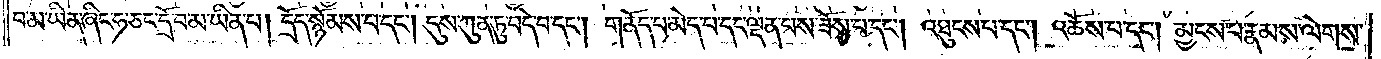པ་མ་ཡིན་ཞིང་ཧ་ཅང་དྲོ་བ་མ་ཡིན་པ། དྲོད་སྙོམས་པ་དང༌། དུས་ཀུན་ཏུ་བདེ་བ་དང༌། གནོད་པ་མེད་པ་དང་ལྡན་པས་ཟོས་པ་དང༌། འཐུངས་པ་དང༌། འཆོས་པ་དང༌། མྱངས་པ་རྣམས་ལེགས་
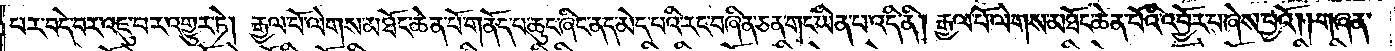པར་བདེ་བར་འཇུ་བར་འགྱུར་ཏེ། རྒྱལ་པོ་ལེགས་མཐོང་ཆེན་པོ་གནོད་པ་ཆུང་ཞིང་ནད་མེད་པའི་རང་བཞིན་ཅན་གང་ཡིན་པ་འདི་ནི། རྒྱལ་པོ་ལེགས་མཐོང་ཆེན་པོའི་འབྱོར་པ་ཞེས་བྱའོ། །གཞན་
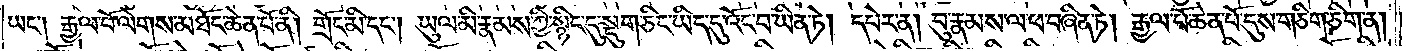ཡང༌། རྒྱལ་པོ་ལེགས་མཐོང་ཆེན་པོ་ནི། གྲོང་མི་དང༌། ཡུལ་མི་རྣམས་ཀྱི་སྙིང་དུ་སྡུག་ཅིང་ཡིད་དུ་འོང་བ་ཡིན་ཏེ། དཔེར་ན། བུ་རྣམས་ལ་ཕ་བཞིན་ཏེ། རྒྱལ་པོ་ཆེན་པོ་དུས་གཅིག་ཅིག་ན།
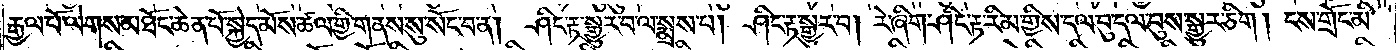རྒྱལ་པོ་ལེགས་མཐོང་ཆེན་པོ་སྐྱེད་མོས་ཚལ་གྱི་གནས་སུ་སོང་བ་ན། ཤིང་རྟ་སྒྱུར་བ་ལ་སྨྲས་པ། ཤིང་རྟ་སྒྱུར་བ། རེ་ཞིག་ཤིང་རྟ་རིམ་གྱིས་དལ་བུ་དལ་བུས་སྒྱུར་ཅིག །ངས་གྲོང་མི་
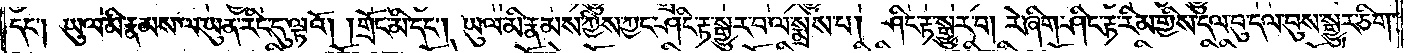དང༌། ཡུལ་མི་རྣམས་ལ་ཡུན་རིང་དུ་ལྟའོ། །གྲོང་མི་དང༌། ཡུལ་མི་རྣམས་ཀྱིས་ཀྱང་ཤིང་རྟ་སྒྱུར་བ་ལ་སྨྲས་པ། ཤིང་རྟ་སྒྱུར་བ། རེ་ཞིག་ཤིང་རྟ་རིམ་གྱིས་དལ་བུ་དལ་བུས་སྒྱུར་ཅིག་
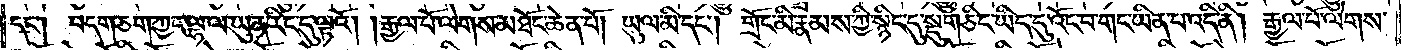དང༌། བདག་ཅག་ཀྱང་ལྷ་ལ་ཡུན་རིང་དུ་ལྟའོ། །རྒྱལ་པོ་ལེགས་མཐོང་ཆེན་པོ། ཡུལ་མི་དང༌། གྲོང་མི་རྣམས་ཀྱི་སྙིང་དུ་སྡུག་ཅིང་ཡིད་དུ་འོང་བ་གང་ཡིན་པ་འདི་ནི། རྒྱལ་པོ་ལེགས་
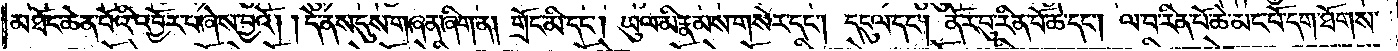མཐོང་ཆེན་པོའི་འབྱོར་པ་ཞེས་བྱའོ། །དེ་ནས་དུས་གཞན་ཞིག་ན། གྲོང་མི་དང༌། ཡུལ་མི་རྣམས་གསེར་དང༌། དངུལ་དང༌། ནོར་བུ་རིན་པོ་ཆེ་དང༌། ལ་བ་རིན་པོ་ཆེ་མང་པོ་དག་ཐོགས་
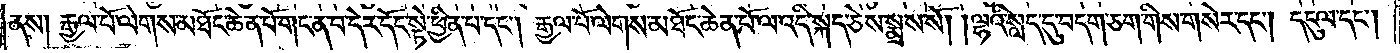ནས། རྒྱལ་པོ་ལེགས་མཐོང་ཆེན་པོ་གང་ན་བ་དེར་དོང་སྟེ་ཕྱིན་པ་དང༌། རྒྱལ་པོ་ལེགས་མཐོང་ཆེན་པོ་ལ་འདི་སྐད་ཅེས་སྨྲས་སོ། །ལྷའི་སླད་དུ་བདག་ཅག་གིས་གསེར་དང༌། དངུལ་དང༌།
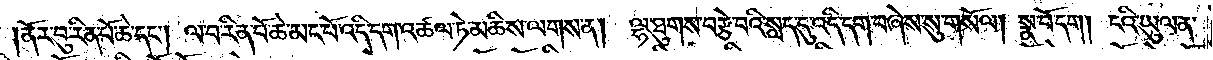ནོར་བུ་རིན་པོ་ཆེ་དང༌། ལ་བ་རིན་པོ་ཆེ་མང་པོ་འདི་དག་འཚལ་ཏེ་མཆིས་ལགས་ན། ལྷ་ཐུགས་བརྩེ་བའི་སླད་དུ་འདི་དག་བཞེས་སུ་གསོལ། སྣ་བོ་དག། ངའི་ཡུལ་ན་
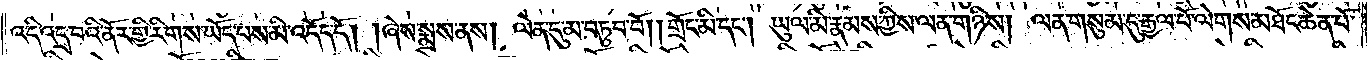འདི་འདྲ་བའི་ནོར་གྱི་རིགས་ཡོད་པས་མི་འདོད་དོ། །ཞེས་སྨྲས་ནས། ལེན་དུ་མ་བཏུབ་བོ། །གྲོང་མི་དང༌། ཡུལ་མི་རྣམས་ཀྱིས་ལན་གཉིས། ལན་གསུམ་དུ་རྒྱལ་པོ་ལེགས་མཐོང་ཆེན་པོ་
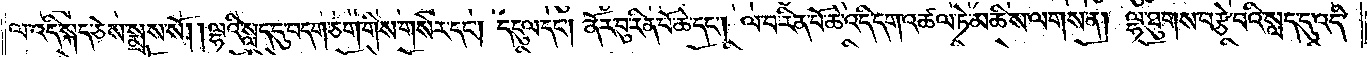ལ་འདི་སྐད་ཅེས་སྨྲས་སོ། །ལྷའི་སླད་དུ་བདག་ཅག་གིས་གསེར་དང༌། དངུལ་དང༌། ནོར་བུ་རིན་པོ་ཆེ་དང༌། ལ་བ་རིན་པོ་ཆེ་འདི་དག་འཚལ་ཏེ་མཆིས་ལགས་ན། ལྷ་ཐུགས་བརྩེ་བའི་སླད་དུ་འདི་
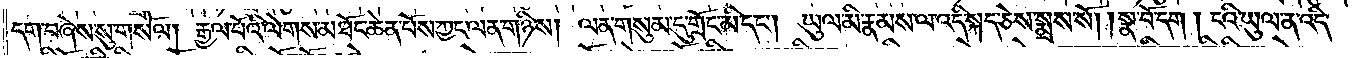དག་བཞེས་སུ་གསོལ། རྒྱལ་པོའི་ལེགས་མཐོང་ཆེན་པོས་ཀྱང་ལན་གཉིས། ལན་གསུམ་དུ་གྲོང་མི་དང༌། ཡུལ་མི་རྣམས་ལ་འདི་སྐད་ཅེས་སྨྲས་སོ། །སྣ་བོ་དག །ངའི་ཡུལ་ན་འདི་
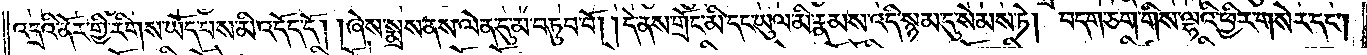འདྲའི་ནོར་གྱི་རིགས་ཡོད་པས་མི་འདོད་དོ། །ཞེས་སྨྲས་ནས་ལེན་དུ་མ་བཏུབ་བོ། །དེ་ནས་གྲོང་མི་དང་ཡུལ་མི་རྣམས་འདི་སྙམ་དུ་སེམས་ཏེ། བདག་ཅག་གིས་ལྷའི་ཕྱིར་གསེར་དང༌།
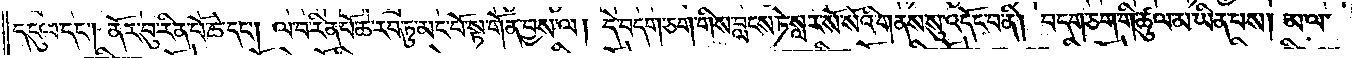དངུལ་དང༌། ནོར་བུ་རིན་པོ་ཆེ་དང༌། ལ་བ་རིན་པོ་ཆེ་རབ་ཏུ་མང་པོ་སྟ་གོན་བྱས་ལ། དེ་བདག་ཅག་གིས་བླངས་ཏེ་སླར་སོ་སོའི་གནས་སུ་འདོང་བ་ནི། བདག་ཅག་གི་ཚུལ་མ་ཡིན་པས། མ་ལ་
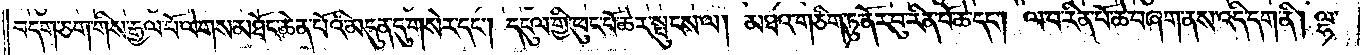བདག་ཅག་གིས་རྒྱལ་པོ་ལེགས་མཐོང་ཆེན་པོའི་མདུན་དུ་གསེར་དང༌། དངུལ་གྱི་ཕུང་པོ་ཆེར་སྤུངས་ལ། མཐའ་གཅིག་ཏུ་ནོར་བུ་རིན་པོ་ཆེ་དང༌། ལ་བ་རིན་པོ་ཆེ་བཞག་ནས་འདི་དག་ནི། ལྷ་
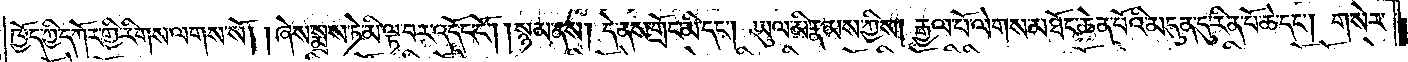ཁྱོད་ཀྱི་དཀོར་གྱི་རིགས་ལགས་སོ། །ཞེས་སྨྲས་ཏེ་མི་ལྟ་བར་འདོང་ངོ༌། །སྙམ་ནས། དེ་ནས་གྲོང་མི་དང༌། ཡུལ་མི་རྣམས་ཀྱིས། རྒྱལ་པོ་ལེགས་མཐོང་ཆེན་པོའི་མདུན་དུ་རིན་པོ་ཆེ་དང༌། གསེར་
